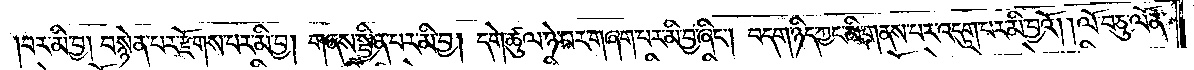བར་མི་བྱ། བསྙེན་པར་རྫོགས་པར་མི་བྱ། གནས་སྦྱིན་པར་མི་བྱ། དགེ་ཚུལ་ཉེ་བར་གཞག་པར་མི་བྱ་ཞིང༌། བདག་ཉིད་ཀྱང་མི་གནས་པར་འདུག་པར་མི་བྱའོ། །ལོ་བཅུ་ལོན་
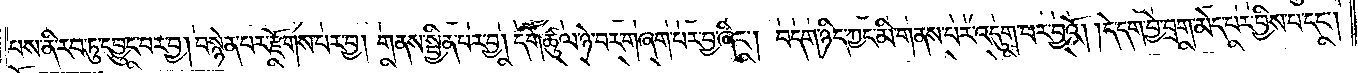པས་ནི་རབ་ཏུ་དབྱུང་བར་བྱ། བསྙེན་པར་རྫོགས་པར་བྱ། གནས་སྦྱིན་པར་བྱ། དགེ་ཚུལ་ཉེ་བར་གཞག་པར་བྱ་ཞིང༌། བདག་ཉིད་ཀྱང་མི་གནས་པར་འདུག་པར་བྱའོ། །དེ་དག་བྱེ་བྲག་མེད་པར་བྱིས་པ་དང༌།
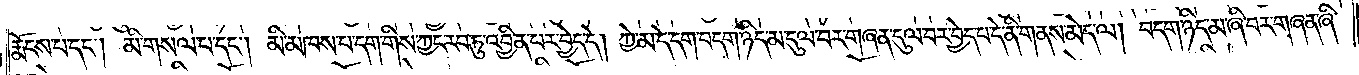རྨོངས་པ་དང༌། མི་གསལ་པ་དང༌། མི་མཁས་པ་དག་གིས་ཀྱང་རབ་ཏུ་འབྱིན་པར་བྱེད་དེ། ཀྱེ་མ་དེ་དག་བདག་ཉིད་མ་དུལ་བར་གཞན་དུལ་བར་བྱེད་པ་དེ་ནི་གནས་མེད་ལ། བདག་ཉིད་མ་ཞི་བར་གཞན་ཞི་
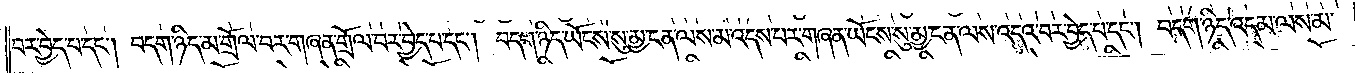བར་བྱེད་པ་དང༌། བདག་ཉིད་མ་གྲོལ་བར་གཞན་གྲོལ་བར་བྱེད་པ་དང༌། བདག་ཉིད་ཡོངས་སུ་མྱ་ངན་ལས་མ་འདས་པར་གཞན་ཡོངས་སུ་མྱ་ངན་ལས་འདའ་བར་བྱེད་པ་དང༌། བདག་ཉིད་འདམ་ལས་མ་
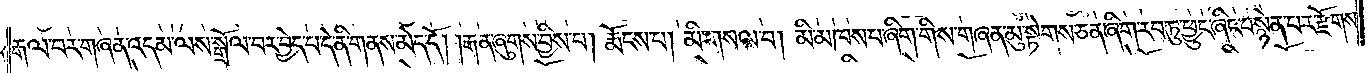རྒལ་བར་གཞན་འདམ་ལས་སྒྲོལ་བར་བྱེད་པ་དེ་ནི་གནས་མེད་དོ། །རྒན་ཞུགས་བྱིས་པ། རྨོངས་པ། མི་གསལ་བ། མི་མཁས་པ་ཞིག་གིས་གཞན་མུ་སྟེགས་ཅན་ཞིག་རབ་ཏུ་ཕྱུང་ཞིང་བསྙེན་པར་རྫོགས་
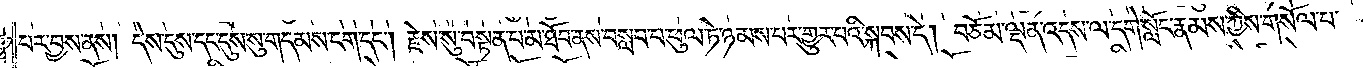པར་བྱས་ནས། དེས་དུས་དང་དུས་སུ་གདམས་ངག་དང༌། རྗེས་སུ་བསྟན་པ་མ་ཐོབ་ནས་བསླབ་པ་ཕུལ་ཏེ་ཉམས་པར་གྱུར་པའི་སྐབས་དེ། བཅོམ་ལྡན་འདས་ལ་དགེ་སློང་རྣམས་ཀྱིས་གསོལ་པ་
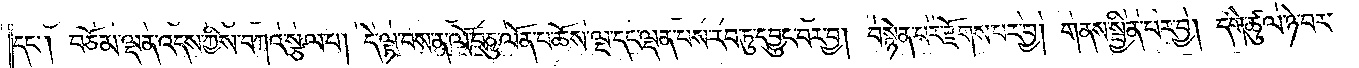དང༌། བཅོམ་ལྡན་འདས་ཀྱིས་བཀའ་སྩལ་པ། དེ་ལྟ་བས་ན་ལོ་བཅུ་ལོན་པ་ཆོས་ལྔ་དང་ལྡན་པས་རབ་ཏུ་དབྱུང་བར་བྱ། བསྙེན་པར་རྫོགས་པར་བྱ། གནས་སྦྱིན་པར་བྱ། དགེ་ཚུལ་ཉེ་བར་
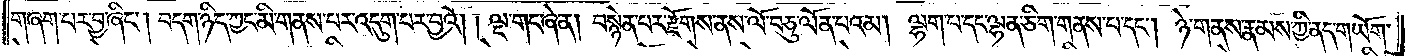གཞག་པར་བྱ་ཞིང༌། བདག་ཉིད་ཀྱང་མི་གནས་པར་འདུག་པར་བྱའོ། །ལྔ་གང་ཞེ་ན། བསྙེན་པར་རྫོགས་ནས་ལོ་བཅུ་ལོན་པའམ། ལྷག་པ་དང་ལྷན་ཅིག་གནས་པ་དང༌། ཉེ་གནས་རྣམས་ཀྱི་ནད་གཡོག་
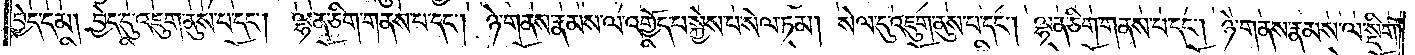བྱེད་དམ། བྱེད་དུ་འཇུག་ནུས་པ་དང༌། ལྷན་ཅིག་གནས་པ་དང༌། ཉེ་གནས་རྣམས་ལ་འགྱོད་པ་སྐྱེས་པ་སེལ་ཏམ། སེལ་དུ་འཇུག་ནུས་པ་དང༌། ལྷན་ཅིག་གནས་པ་དང༌། ཉེ་གནས་རྣམས་ལ་སྡིག་
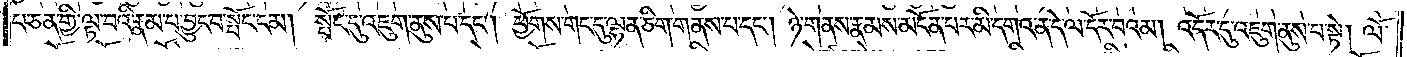པ་ཅན་གྱི་ལྟ་བའི་རྣམ་པ་བྱུང་བ་སྤོང་ངམ། སྤོང་དུ་འཇུག་ནུས་པ་དང༌། ཕྱོགས་གང་དུ་ལྷན་ཅིག་གནས་པ་དང༌། ཉེ་གནས་རྣམས་མངོན་པར་མི་དགའ་ན་དེ་ལ་དོར་བའམ། འདོར་དུ་འཇུག་ནུས་པ་སྟེ། ལོ་
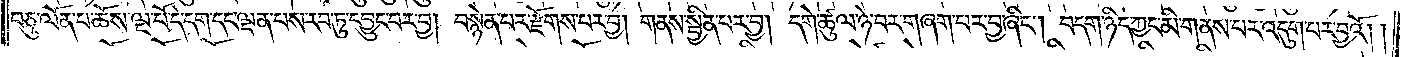བཅུ་ལོན་པ་ཆོས་ལྔ་པོ་དེ་དག་དང་ལྡན་པས་རབ་ཏུ་དབྱུང་བར་བྱ། བསྙེན་པར་རྫོགས་པར་བྱ། གནས་སྦྱིན་པར་བྱ། དགེ་ཚུལ་ཉེ་བར་གཞག་པར་བྱ་ཞིང༌། བདག་ཉིད་ཀྱང་མི་གནས་པར་འདུག་པར་བྱའོ། །
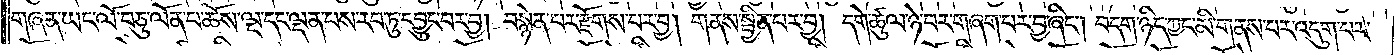གཞན་ཡང་ལོ་བཅུ་ལོན་པ་ཆོས་ལྔ་དང་ལྡན་པས་རབ་ཏུ་དབྱུང་བར་བྱ། བསྙེན་པར་རྫོགས་པར་བྱ། གནས་སྦྱིན་པར་བྱ། དགེ་ཚུལ་ཉེ་བར་གཞག་པར་བྱ་ཞིང༌། བདག་ཉིད་ཀྱང་མི་གནས་པར་འདུག་པར་
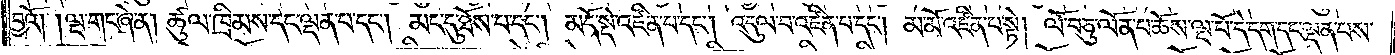བྱའོ། །ལྔ་གང་ཞེ་ན། ཚུལ་ཁྲིམས་དང་ལྡན་པ་དང༌། མང་དུ་ཐོས་པ་དང༌། མདོ་སྡེ་འཛིན་པ་དང༌། འདུལ་བ་འཛིན་པ་དང༌། མ་མོ་འཛིན་པ་སྟེ། ལོ་བཅུ་ལོན་པ་ཆོས་ལྔ་པོ་དེ་དག་དང་ལྡན་པས་
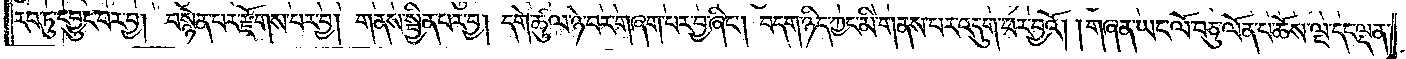རབ་ཏུ་དབྱུང་བར་བྱ། བསྙེན་པར་རྫོགས་པར་བྱ། གནས་སྦྱིན་པར་བྱ། དགེ་ཚུལ་ཉེ་བར་གཞག་པར་བྱ་ཞིང༌། བདག་ཉིད་ཀྱང་མི་གནས་པར་འདུག་པར་བྱའོ། །གཞན་ཡང་ལོ་བཅུ་ལོན་པ་ཆོས་ལྔ་དང་ལྡན་
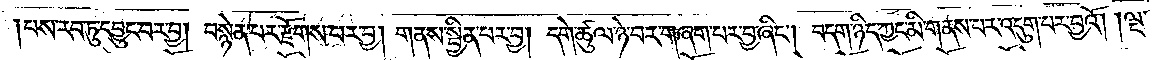པས་རབ་ཏུ་དབྱུང་བར་བྱ། བསྙེན་པར་རྫོགས་པར་བྱ། གནས་སྦྱིན་པར་བྱ། དགེ་ཚུལ་ཉེ་བར་གཞག་པར་བྱ་ཞིང༌། བདག་ཉིད་ཀྱང་མི་གནས་པར་འདུག་པར་བྱའོ། །ལྔ་
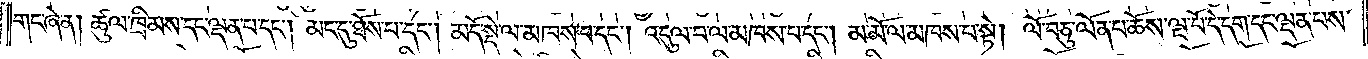གང་ཞེ་ན། ཚུལ་ཁྲིམས་དང་ལྡན་པ་དང༌། མང་དུ་ཐོས་པ་དང༌། མདོ་སྡེ་ལ་མཁས་པ་དང༌། འདུལ་བ་ལ་མཁས་པ་དང༌། མ་མོ་ལ་མཁས་པ་སྟེ། ལོ་བཅུ་ལོན་པ་ཆོས་ལྔ་པོ་དེ་དག་དང་ལྡན་པས་
